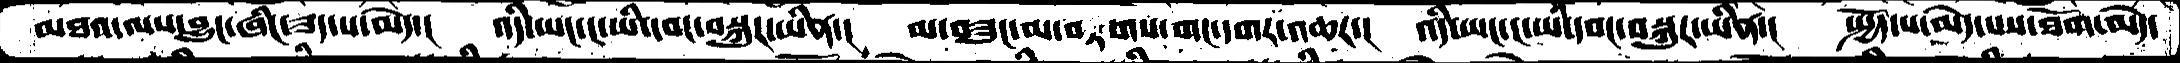མཐའ་ལས་བྱུང་ཞིང་ཟད་པ་མེད་།  འདི་ཡང་ང་ཡི་དབང་བསྐུར་ཡིན་།  མ་བཟུང་མ་བརྟགས་གང་དགར་འཆར་།  འདི་ཡང་ང་ཡི་དབང་བསྐུར་ཡིན་།  སྤྱོད་པ་མེད་པས་ཐོག་མེད་
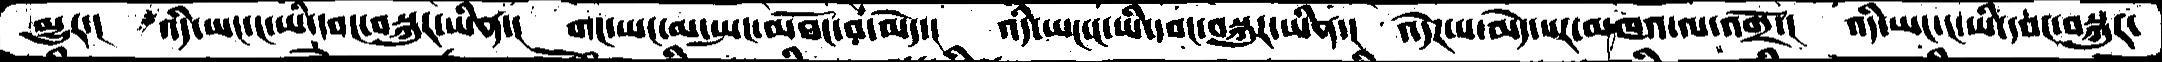མྱུར་།  འདི་ཡང་ང་ཡི་དབང་བསྐུར་ཡིན་།  གང་ཡང་མ་སྤང་མཐོང་བ་མེད་།  འདི་ཡང་ང་ཡི་དབང་བསྐུར་ཡིན་།  འདེཌ་པ་མེད་པར་མཁའ་ལ་འགྲོ་།  འདི་ཡང་ང་ཡི་དབང་བསྐུར་
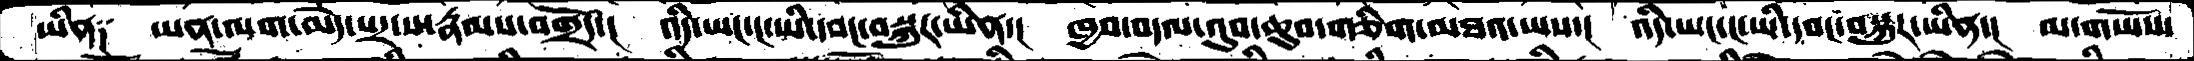ཡིན༑  ཡན་ལག་མེད་པར་ས་རྣམས་བགྲོད་།  འདི་ཡང་ང་ཡི་དབང་བསྐུར་ཡིན་།  ཁྱབ་བདལ་འུབ་ཆུབ་གཅིག་མཐའ་ཡས་།  འདི་ཡང་ང་ཡི་དབང་བསྐུར་ཡིན་།  མ་གཡོས་
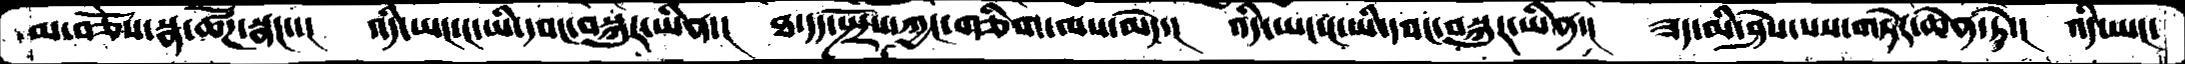མ་བཅོས་སྣ་ཚོཌ་སྣང་་།  འདི་ཡང་ང་ཡི་དབང་བསྐུར་ཡིན་།  ཐ་དད་སྤྲོས་ཀྱང་གཅིག་ལས་མེད་།  འདི་ཡང་ང་ཡི་དབང་བསྐུར་ཡིན་།  ཟད་མི་ཤེས་པས་གཏེར་ཆེན་ཏེ་།  འདི་ཡང་
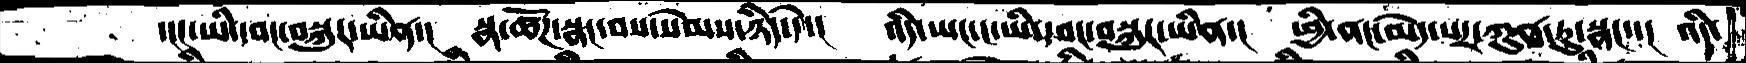་།ང་ཡི་དབང་བསྐུར་ཡིན་།   སྣ་ཚོཌ་སྣང་བས་སེམས་ཉིད་དེ་།  འདི་ཡང་ང་ཡི་དབང་བསྐུར་ཡིན་།  ཕྱི་ནང་མེད་པར་ཀུན་ཏུ་སྣང་་།  འདི་
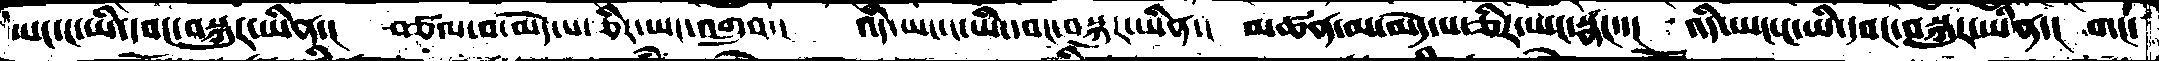ཡང་ང་ཡི་དབང་བསྐུར་ཡིན་།  བཙལ་བ་མེད་པ་ཅིར་ཡང་འགྲུབ་།  འདི་ཡང་ང་ཡི་དབང་བསྐུར་ཡིན་།  མཚན་མ་མེེད་པ་ཅིར་ཡང་སྣང་་།  འདི་ཡང་ང་ཡི་དབང་བསྐུར་ཡིན་། གང་
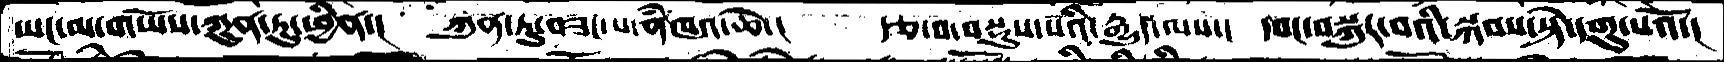ཡང་མ་གཡོས་ཀུན་ཏུ་ཕྱིན་།  ཀུན་ཏུ་བཟང་པ་ནཾཁའ་ཆེ་།  དཙ་བ་བསྡུས་པའི་རྒྱུད་ལས་།  དབང་བསྐུར་བའི་སྐབས་སྟེ་དགུ་པའོ་།
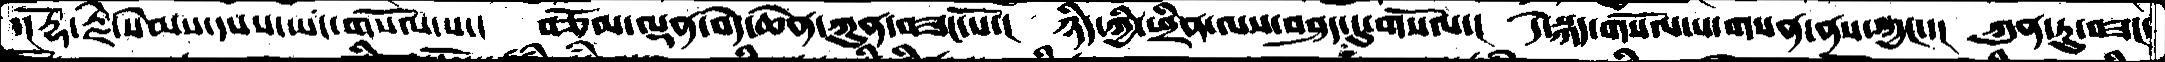་།་རྡོ་རྗེ་སེམས་དསས་ཡང་གསོལ་པ་།  བཅོམ་ལྡན་བདེ་ཆེན་ཀུན་བཟང་པོ་།  ཉིད་ཀྱི་ཕྲིན་ལས་བཤད་དུ་གསོལ་།  དེ་སྐད་གསོལ་པ་གསན་ནས་ཀྱང་་།  ཀུན་ཏུ་བཟང་
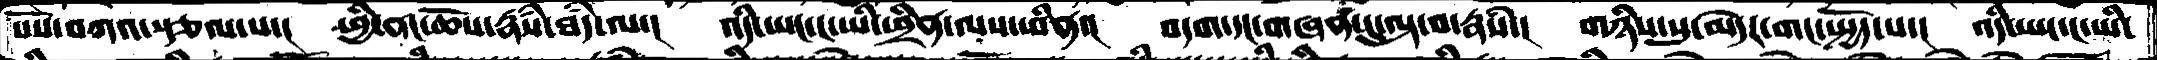སོས་བཀའ་སྩལ་པ་།  ཕྱི་ནང་ཆོས་རྣཾས་ཐཾད་ལ་།  འདི་ཡང་ང་ཡི་ཕྲིན་ལས་ཡིན་།  བདག་དང་གཞན་དུ་ལྟ་བ་རྣཾས་།  གཉིས་སུ་མེདར་གང་སྤྱོད་པ་།  འདི་ཡང་ང་ཡི་
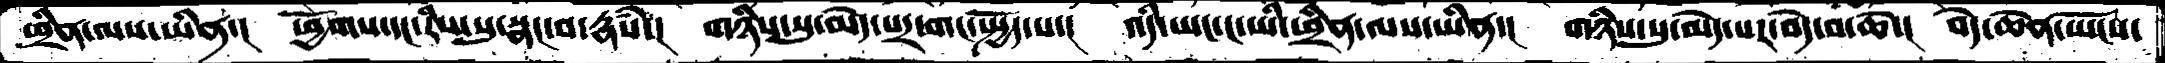ཕྲིན་ལས་ཡིན་།  ཕྱོགས་དང་རིས་སུ་སྣང་བ་རྣཾས་།  གཉིས་སུ་མེད་པར་གང་སྤྱོད་པ་།  འདི་ཡང་ང་ཡི་ཕྲིན་ལས་ཡིན་།  གཉིས་སུ་མེད་པར་བདེ་བ་ཆེ་།  བདེ་ཆེན་ཡོངས་
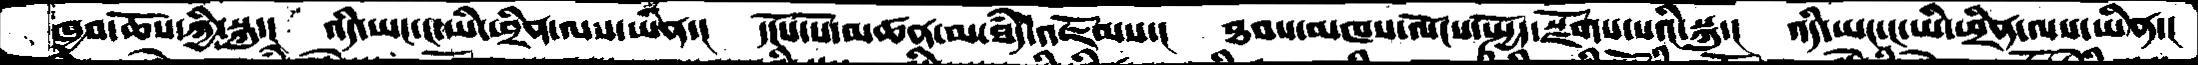ཁྱབ་ཆོས་ཀྱི་སྐུ་།  འདི་ཡང་ང་ཡི་ཕྲིན་ལས་ཡིན་།  དངོས་པོ་མཚན་མ་ཐཾད་འཇོམས་།  ཐབས་མཁས་ལོངས་སྤྱོད་སྫོགས་་པའི་སྐུ་།  འདི་ཡང་ང་ཡི་ཕྲིན་ལས་ཡིན་།
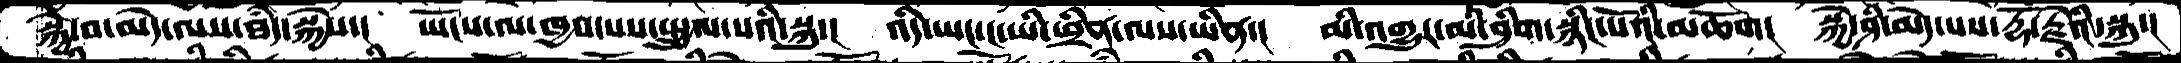སྐྱེ་བ་མེད་ལས་ཐཾད་སྐྱེས་།  ཡོངས་ལ་ཁྱབ་པས་སྤྲུལ་པའི་སྐུ་།  འདི་ཡང་ང་ཡི་ཕྲིན་ལས་ཡིན་།  མི་འགྱུར་མི་ཤིག་སྙིང་པོའི་མཆོག།  སྐྱེ་ཤི་མེད་པས་རྡོ་རྗེའི་སྐུ་།
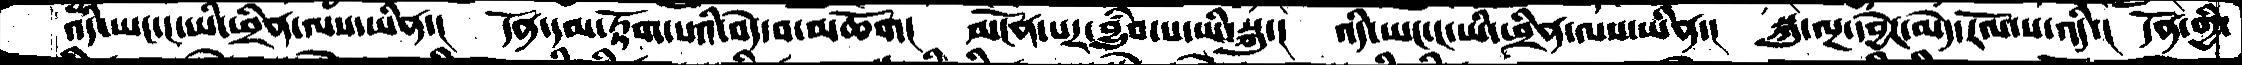འདི་ཡང་ང་ཡི་ཕྲིན་ལས་ཡིན་།   དོན་དམ་རྟོག་པའི་བདེ་བ་མཆོག།  མངོན་པར་བྱུཾབ་པ་ཡི་སྐུ་།  འདི་ཡང་ང་ཡི་ཕྲིན་ལས་ཡིན་།  སྐུ་ལྔ་དབྱེར་མེད་རོལ་པ་འདི་།  དོན་གྱི་
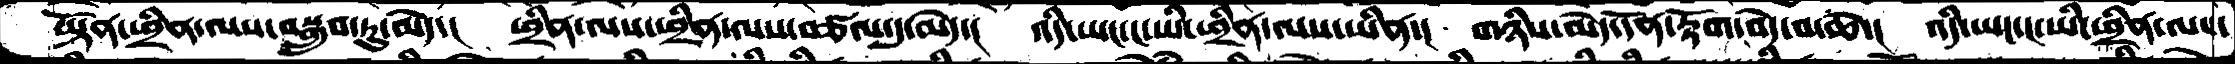ཡྟོན་ཕྲིན་ལས་བསྒྲུབ་ཏུ་མེད་།  ཕྲིན་ལས་ཕྲིན་ལས་བཙལ་དུ་མེད་།  འདི་ཡང་ང་ཡི་ཕྲིན་ལས་ཡིན་།  གཉིས་མེད་དོན་རྟོག་བདེ་བ་ཆེ་།  འདི་ཡང་ང་ཡི་ཕྲིནལས་
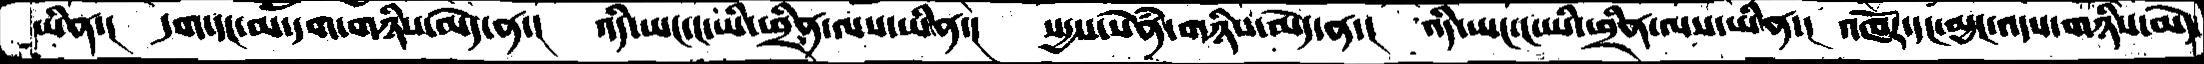ཡིན་།  དག་དང་མ་དག་གཉིས་མེད་ན་།  འདི་ཡང་ང་ཡི་ཕྲིན་ལས་ཡིན་།  སདྱས་སེཾན་གཉིས་མེད་ན་།  འདི་ཡང་ང་ཡི་ཕྲིན་ལས་ཡིན་།  འཁོར་དང་མྱང་འདས་གཉིས་མེད་
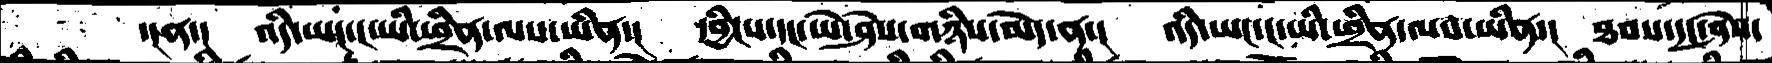་།ན་།  འདི་ཡང་ང་ཡི་ཕྲིན་ལས་ཡིན་།  དབྱིངས་དང་ཡེ་ཤེས་གཉིས་མེད་ན་།  འདི་ཡང་ང་ཡི་ཕྲིན་ལས་ཡིན་།  ཐབས་དང་ཤེས་
